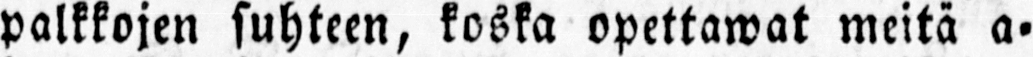palkkojen suhteen, koska opettawat meitä a-
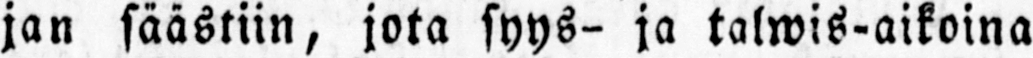jan säästiin, jota syys- ja talwis-aikoina
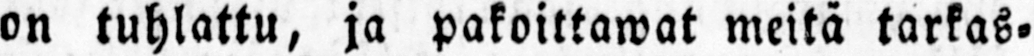on tuhlattu, ja pakoittawat meitä tarkas-
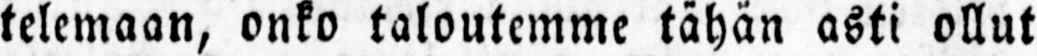telemaan, onko taloutemme tähän asti ollut
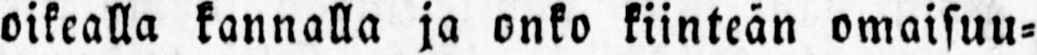oikealla kannalla ja onko kiinteän omaisuu-
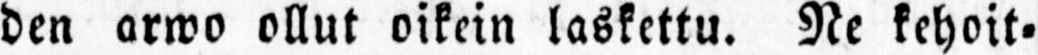den arwo ollut oikein laskettu. Ne kehoit-
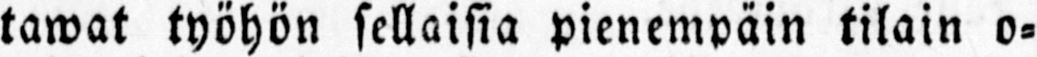tawat työhön sellaisia pienempäin tilain o-
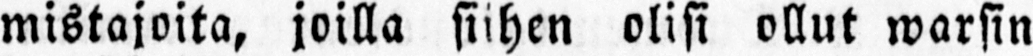mistajoita, joilla siihen olisi ollut warsin
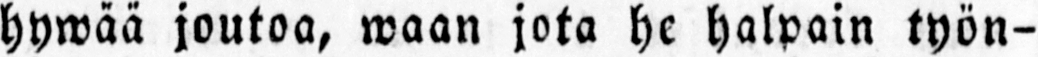hywää joutoa, waan jota he halpain työn-
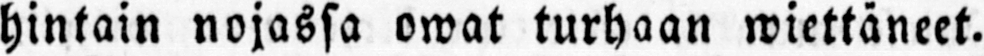hintain nojassa owat turhaan wiettäneet.
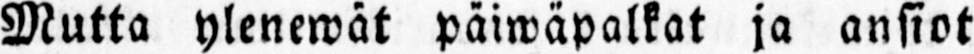Mutta ylenewät päiwäpalkat ja ansiot
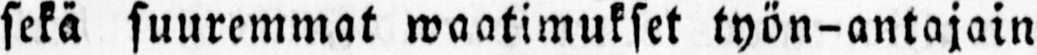sekä suuremmat waatimukset työn-antajain
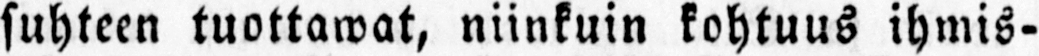suhteen tuottawat, niinkuin kohtuus ihmis-
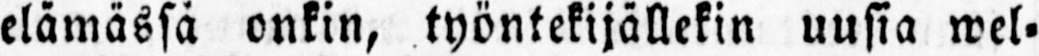elämässä onkin, työntekijällekin uusia wel-
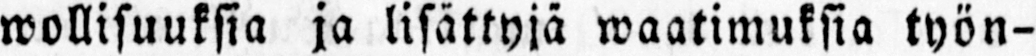wollisuuksia ja lisättyjä waatimuksia työn-
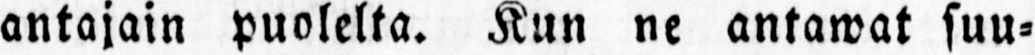antajain puolelta. Kun ne antawat suu-
